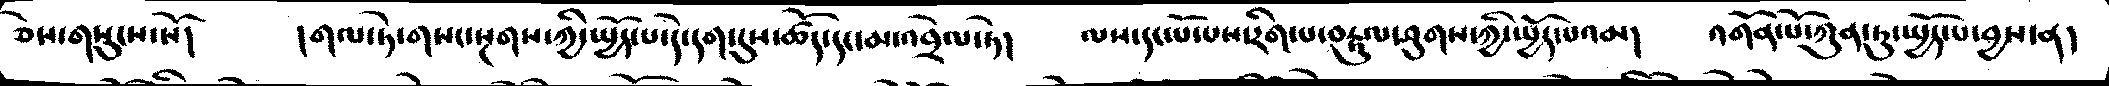ཅེས་གསུངས་སོ།   །གལ་ཏེ་གསང་སྔགས་ཀྱི་སྤྱོད་པ་དེ་དག་དུས་ཚོད་དང་མ་འབྲེལ་ཏེ།   ལས་དང་པོ་པས་རིག་པ་བརྟུལ་ཤུགས་ཀྱི་སྤྱོད་པའམ།  འགོན་པོ་ཀུན་ཏུ་སྤྱོད་པ་བྱས་ན།
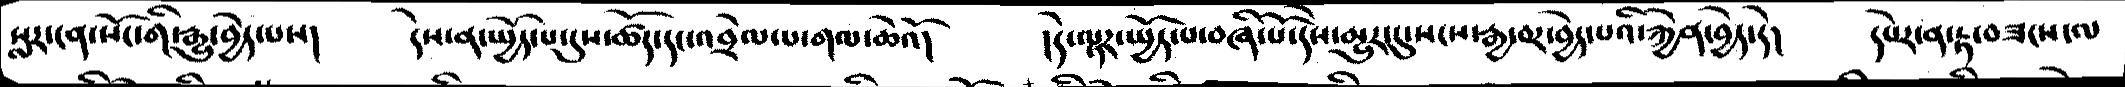སླར་ངན་སོང་གི་རྒྱུ་བྱེད་པས།   དེས་ན་སྤྱོད་པ་དུས་ཚོད་དང་འབྲེལ་པ་གལ་ཆེའོ།   །དེ་ལྟར་སྤྱོད་པ་བཞི་པོ་དེས་མྱུར་དུ་སངས་རྒྱ་བར་བྱེད་པའི་རྐྱེན་བྱེད་དེ།  དཔེར་ན་རྟ་བཟངས་ལ
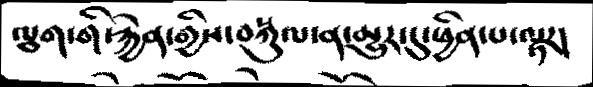ལྕག་གི་རྐྱེན་གྱིས་བསྐུལ་ན་མྱུར་དུ་ཕྱིན་པ་ལྟར།
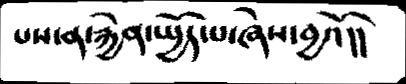པས་ན་རྐྱེན་སྤྱོད་པ་ཞེས་བྱའོ།།
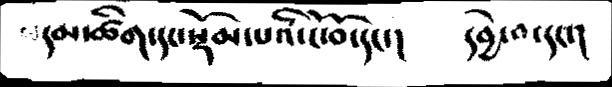དམ་ཚིག་དང་སྡོམ་པའི་ངོ་བོ་དང་།   དབྱེ་བ་དང་།
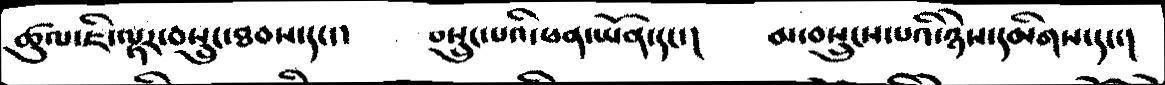ཚུལ་ཇི་ལྟར་བསྲུང་ཐབས་དང་་   བསྲུང་པའི་ཕན་ཡོན་དང་།   མ་བསྲུངས་པའི་ཉེས་དམིགས་དང་།
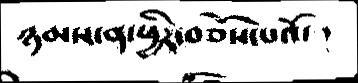ཉམས་ན་ཕྱིར་བཅོས་པའོ་།
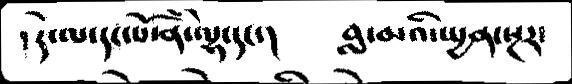།དེ་ལ་དང་པོ་ནི་ལྷ་དང་།  བླ་མའི་སྤྱན་སྔར་
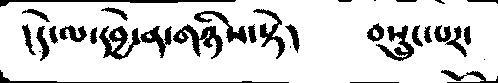།དེ་ལ་དབྱེ་ན་གཉིས་སྟེ།    བསྲུང་པར་
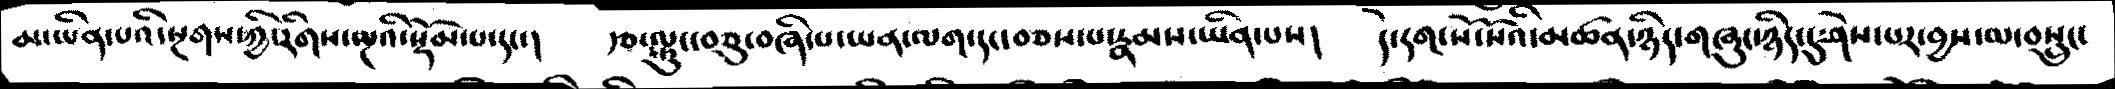མ་ཡིན་པའི་སྔགས་ཀྱི་རིགས་ལྔའི་སྡོམ་པ་དང་།   རྩ་ལྟུང་བཅུ་བཞི་པ་ཡན་ལག་དང་བཅས་པ་རྣམས་ཡིན་པས།   དེ་དག་སོ་སོའི་མཚན་ཉིད་གཞུང་ཉིད་དུ་ཤེས་པར་བྱས་མ་བསྲུང་
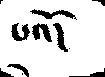པའོ།
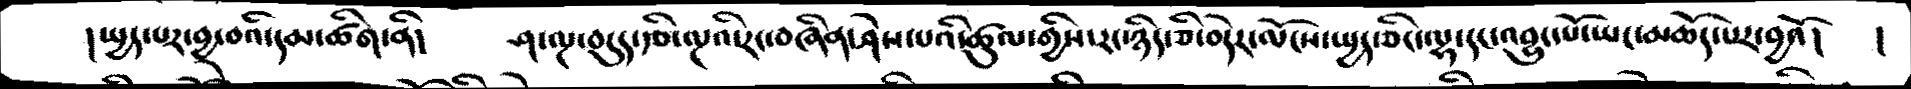།སྤྱད་པར་བྱ་བའི་དམ་ཚིག་ནི།   ཤ་ལྔ་བདུད་རྩི་ལྔའི་རང་བཞིན་ཤེས་པའི་ཚུལ་གྱིས་རང་ཉིད་ཅི་བདེར་ལོངས་སྤྱད་ཅིང་ལྷ་དང་འབྱུང་པོ་ཡང་མཆོད་པར་བྱའོ།   །
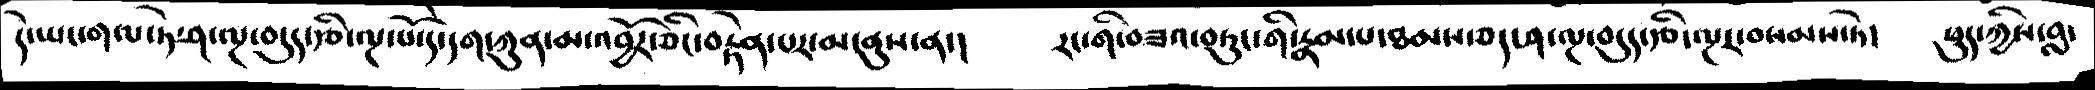དེ་ཡང་གལ་ཏེ་ཤ་ལྔ་བདུད་རྩི་ལྔ་པོ་དེ་དག་ཀུན་མ་འབྱོར་ཅིང་བརྟེན་པར་མ་ནུས་ན་། རང་གི་བཟའ་བཏུང་གི་རྣམ་པ་ཐམས་ཅད་ཤ་ལྔ་བདུད་རྩི་ལྔར་བསམས་ཏེ།   ཕུད་ཀྱིས་བླ་
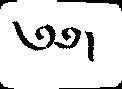༄༅།
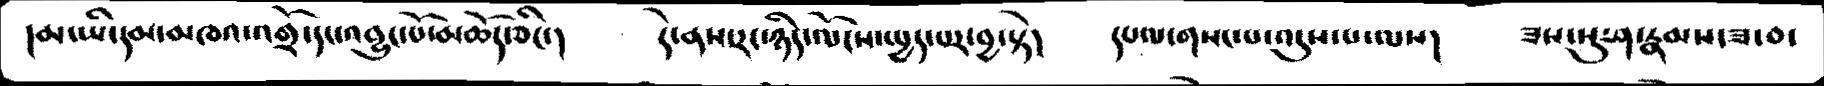།མ་ཡི་དམ་མཁའ་འགྲོ་དང་འབྱུང་པོ་མཆོད་ཅིང་།   དེ་ནས་རང་ཉིད་ལོངས་སྤྱད་པར་བྱ་སྟེ།   དཔལ་གསང་པ་འདུས་པ་ལས།   ཟས་སུ་ཤ་རྣམས་ཟ་བ་
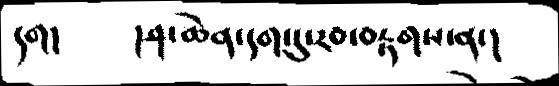དག།    །ཤ་ཆེན་དག་དུ་རབ་བརྟགས་ན་།
